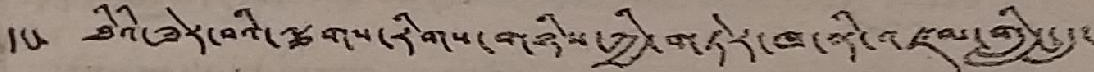དང་ ཐིའི་ཟེར་བའི་ལྕགས་རིགས་གཉིས་ཀྱི་གཏེར་ཁ་ལྟི་འཛམ་གླིང་དུ་
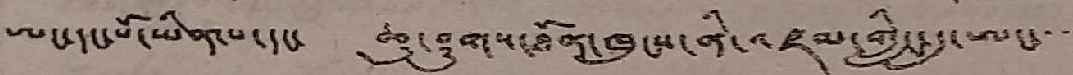ཨང་དང་པོ་ཡིན་པ་དང་ ཆུ་ཤུགས་ཐོན་ཁུངས་ནི་འཛམ་གླིང་དུ་ཨང་་་་་
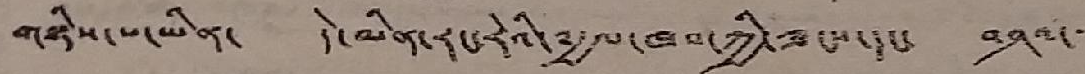གཉིས་པ་ཡིན་ དེ་མིན་རང་རེའི་༸རྒྱལ་ཁབ་ཀྱི་ཟངས་དང་ བཤའ་་་
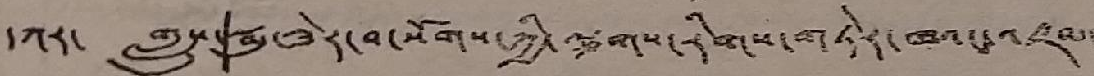དཀར་ གླུས་སྨུ་ཟེར་བ་སོགས་ཀྱི་ལྕགས་རིགས་གཏེར་ཁའང་འཛམ་
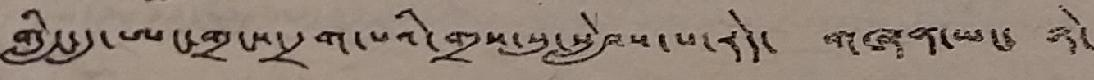གླིང་དུ་ཨང་གྲངས་དྲག་པའི་གྲས་སུ་སླེབས་ས་རེད་ གཞན་ཡང་ ཉེ་
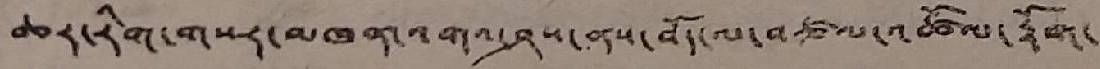ཆར་རིག་གསར་མཁན་འགའ་ཤས་ནས་བོད་ལ་བཙལ་འཚོལ་རྟོག་
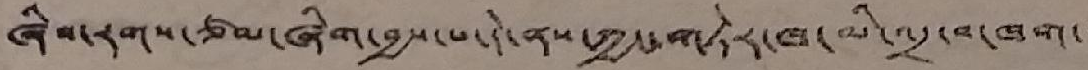ཞིབ་རགས་ཙམ་ཞིག་བྱས་པ་དེ་ནས་ཀྱང་གཏེར་ཁ་མི་འདྲ་བ་ཁག་་
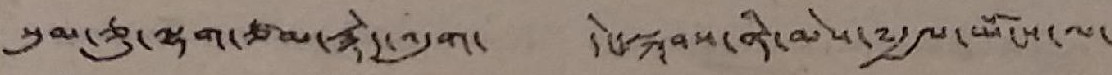སུམ་ཅུ་ལྷག་ཙམ་རྙེད་འདུག་ དེང་སྐབས་ནི་མེས་༸རྒྱལ་ཡོངས་ལ་
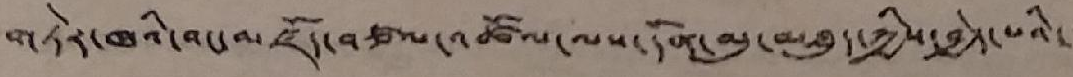གཏེར་ཁའི་བང་མཛོད་བཙལ་འཚོལ་ལས་དོན་མུ་མཐུད་ཀྱིས་བྱེད་པའི་་་
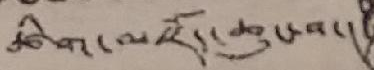ཚིག་མཛོད་ཆུང་བ་།
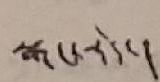སྒང་རེད་།
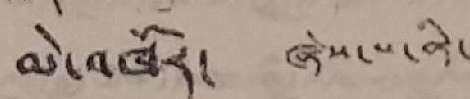མེ་འཁོར་ ཞེས་པ་ནི་
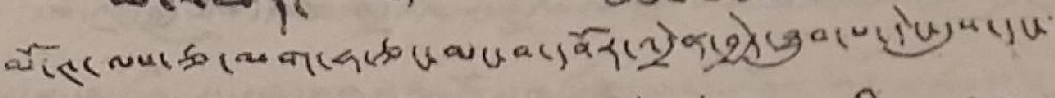མོ་ཊ་ལས་ཅ་ལག་ཧ་ཅང་མང་བ་དབོར་འདྲེན་བྱེད་ཐུབ་པ་དེང་དུས་དང་་་་
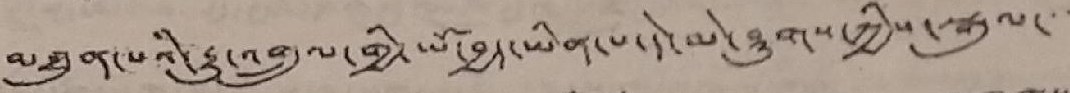མཐུན་པའི་རྒྱུ་འགྲུལ་གྱི་ཡོ་བྱད་ཡིན་པ་དེ་མེ་ཤུགས་ཀྱིས་སྒུལ་་་་
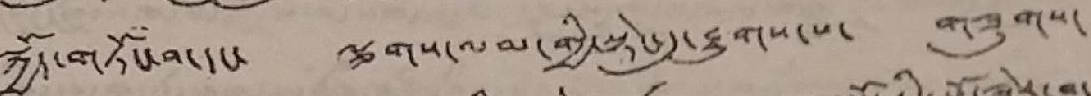སྐྱོད་གཏོང་བ་དང་ ལྕགས་ལམ་གྱི་སྟེང་དུ་རྒྱུགས་པ་ གཟུགས་
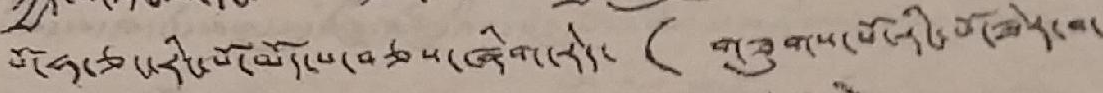པོ་ཧ་ཅང་རིང་པོ་ཡོད་པ་བཅས་ཞིག་རེད་ ་(གཟུགས་པོ་རིང་པོ་ཟེར་བ་
